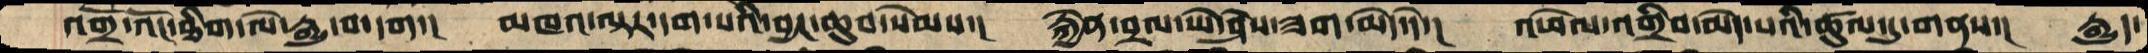འགྲོ་འོང་ཐིག་ལེ་རྒྱུ་བ་དག་།  མཁའ་ལྟར་དག་པའི་བྱང་ཆུབ་སེམས་།  རྐྱེན་བྲལ་ཡེ་ཤེས་ཟག་མེད་དེ་།  འཕེལ་འགྲིབ་མེད་པའི་ཚུལ་དུ་གནས་།  རྒྱུད་
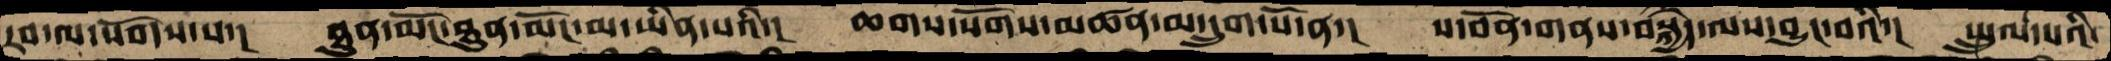རབ་ལ་སོགས་པ་།  ཐུན་མོང་ཐུན་མོང་མ་ཡིན་པའི་།  ཆགས་སོགས་མཚན་མ་དྲུག་པོ་ན་།  ས་བོན་གནས་བསྐྱེད་ལས་བྱུང་བའི་།  སྤྲུལ་པའི་
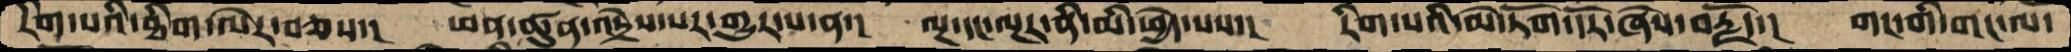རིག་པའི་ཐིག་ལེར་བཅས་།   ཕན་ཚུན་འདྲེས་པར་གྱུར་པ་ན་།  ལྔ་དང་ལྔར་ནི་མི་ཕྱེད་པས་།  རིག་པའི་མེ་ཏོག་དོར་ཞེས་བརྗོད་།  གང་གི་གང་ལ་
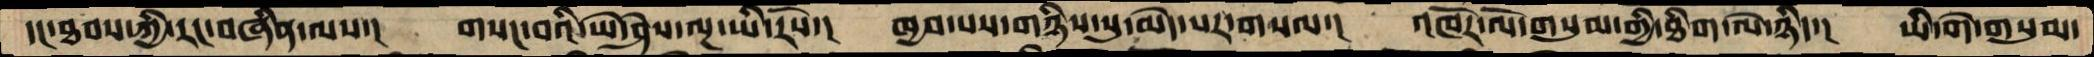དང་ཐབས་ཀྱི་རང་བཞིན་ལས་།  གསང་བའི་ཡེ་ཤེས་ལྔ་ཡི་རོས་།  ཁྱབ་པས་གཉིས་སུ་མེད་པར་གསལ་།  འཁོར་ལོ་གསུམ་གྱི་ཐིག་ལེ་ཉིད་།  ཡི་གེ་གསུམ་
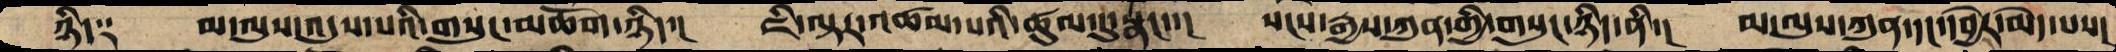ཉིད༑  མལུས་འདུས་པའི་གསུང་མཆོག་ཉིད་།  ཇི་ལྟར་འཚམ་པའི་ཚུལ་དུ་སྣང་་།  སངས་རྒྱས་ཀུན་གྱི་གསུང་ཉིད་ནི་།  མ་ལུས་ཀུན་དང་དབྱེར་མེད་པས་།
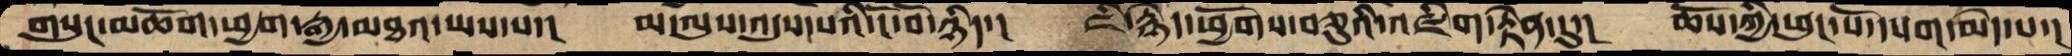གསུང་མཆོག་ཕྱག་རྒྱ་མཐའ་ཡས་པ་།  མ་ལུས་འདུས་པའི་ངོ་བོ་ཉིད་།  ཇི་རྙེད་ཕྱོགས་བཅུའི་འཇིག་རྟེན་དུ་།  ཆོས་ཀྱི་ཕུང་པོ་དཔག་མེད་པ་།
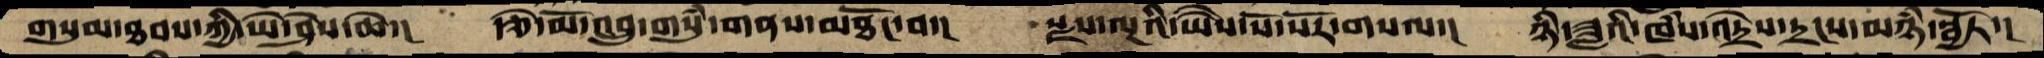གསུམ་ཐབས་ཀྱི་ཡེ་ཤེས་ཆེ་།  རྩེ་མོ་འབྲུ་གསུཾ་གནས་མཐོང་བ་།  སྫས་ལྔའི་ཡཻས་སོ་སོར་གསལ་།  ཉི་ཟླའི་ཁཾས་འདྲེས་དྲངས་མཉཾ་སྦྱོར་།
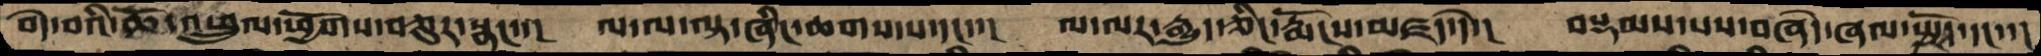བདེ་བའི་ཆོ་འཕྲུལ་ཕྱོགས་བཅུར་སྣང་་།   ལ་ལ་ལྟ་ཞིང་ཆགས་པ་དང་་།  ལ་ལར་རྒྱུད་ཅིང་རྨོངས་མཛད་དེ་།  བསྡམས་པས་བཞེད་ཞལ་སྤྱོད་དང་་།
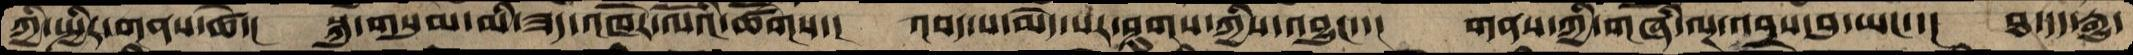ཀྱི་སྤྱིར་གནས་ཚེ་།  སྐུ་གསུམ་མི་ཟད་འཁོར་ལོའི་ཚོགས་།   འབད་པ་མེད་པར་ཤུགས་ཀྱིས་འབྱུང་་།  གནས་ཀྱི་གཞི་ལྔ་འབྲས་བུ་ཡང་་།   ཐ་དད་རྒྱུ་
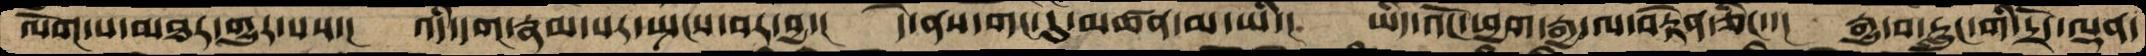ལོག་པ་མཐར་གྱུར་པས་།  འདི་དག་རྣམ་པར་སྤངས་བར་བྱ་།  དེ་ནས་གང་དུ་མཚན་མ་ཡི་།  ཡིད་འོང་ཕྱག་རྒྱ་ལ་བརྟེན་ཅིང་་།  རྒྱུ་བ་རླུང་གི་དྲོད་ལྡན་
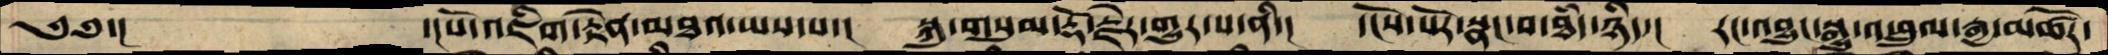༄༅་།      ་།པོ་འཇིག་རྟེན་མཐའ་ཡས་པ་།  སྐུ་གསུམ་རྡོ་རྗེར་གྱུར་པ་ནི་།  དངོས་པོར་སྣང་བ་ཐདཾ་ཉིད་།  རང་འབྱུང་སྒྱུ་འཕྲུལ་རྒྱ་མཚོར་
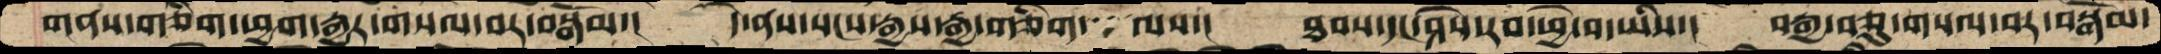གནས་གཅིག་ཕྱག་རྒྱར་གསལ་བར་བསྒོམ་།  དེ་ནས་སངས་རྒྱས་རྒྱ་གཅིག་་་ལས་།  ཐབས་དང་ཤེས་རབ་ཕྱེ་བ་ཡིས་།  བརྒྱ་བཅུ་གསལ་བར་བསྒོམ་
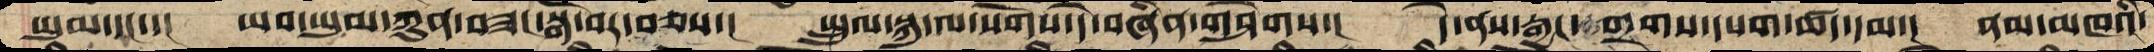ཡུམ་དང་་།  ཡབ་ཡུམ་ཀུན་བཟང་སྒོ་བར་བཅས་།  སྤྲུལ་སྐུ་ལ་སོགས་དེ་བཞིན་གཤེགས་།  དེ་ནས་རྒྱང་གྲགས་དཔག་ཚད་དམ་།  ནམ་མཁའི་
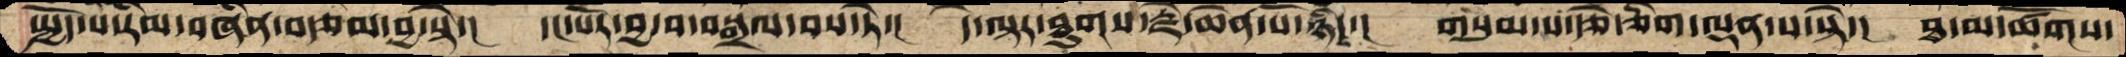སྤྱོད་པ་རིམ་བཞིན་བརྩམ་བྱ་སྟེ་།  དང་པོར་བྱ་བ་བསྒྲལ་བས་ཏེ་།   དེ་ལྟར་ཐུགས་རྗེ་ཆེན་པོ་ཉིད་།  གསུམ་པ་རྩེ་ཅིག་ལྡན་པ་སྟེ་།  ཐ་མ་ཚོགས་
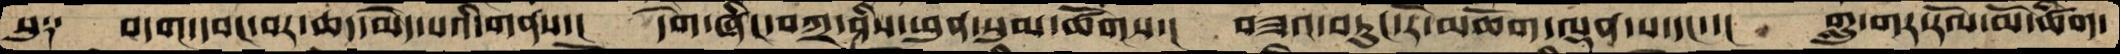སུ༑   བདག་དབང་བར་ཆད་མེད་པའི་གནས་།   དགེ་ཞིང་བཀྲ་ཤིས་ཕུན་སུམ་ཚོགས་།  བཟའ་བཏུང་རོ་མཆོག་ལྡན་པ་དང་་།  གླུ་གར་རོལ་མོ་ཚིག་
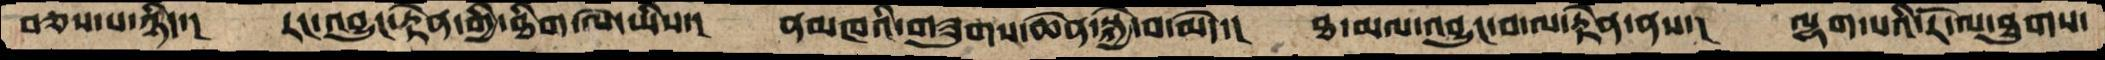བཅས་པ་ཉིད་།  རང་འབྱུང་རྟེན་གྱི་ཐིག་ལེ་ཡིས་།  ནམཁའི་གཟུགས་ཆེན་སྐྱེ་བ་མེད་།  ཐ་མལ་འབྱུང་བ་ལ་རྟེན་ནས་།  ལྷག་པའི་རེ་ལ་ཐུགས་
